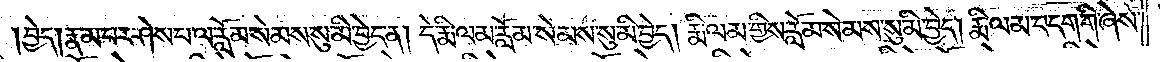བྱེད། རྣམ་པར་ཤེས་པ་ལ་རློམ་སེམས་སུ་མི་བྱེད་ན། དེ་རྨི་ལམ་རློམ་སེམས་སུ་མི་བྱེད། རྨི་ལམ་གྱིས་རློམ་སེམས་སུ་མི་བྱེད། རྨི་ལམ་བདག་གི་ཞེས་
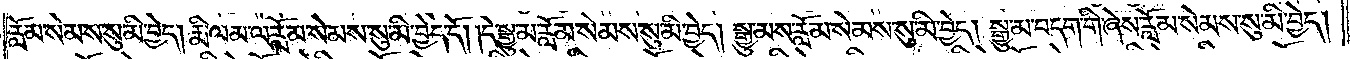རློམ་སེམས་སུ་མི་བྱེད། རྨི་ལམ་ལ་རློམ་སེམས་སུ་མི་བྱེད་དོ། །དེ་སྒྱུ་མ་རློམ་སེམས་སུ་མི་བྱེད། སྒྱུ་མས་རློམ་སེམས་སུ་མི་བྱེད། སྒྱུ་མ་བདག་གི་ཞེས་རློམ་སེམས་སུ་མི་བྱེད།
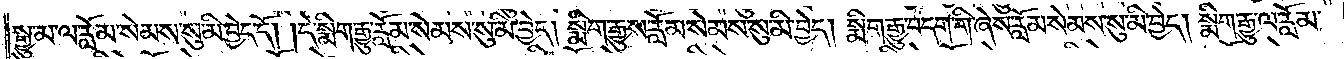སྒྱུ་མ་ལ་རློམ་སེམས་སུ་མི་བྱེད་དོ། །དེ་སྨིག་རྒྱུ་རློམ་སེམས་སུ་མི་བྱེད། སྨིག་རྒྱུས་རློམ་སེམས་སུ་མི་བྱེད། སྨིག་རྒྱུ་བདག་གི་ཞེས་རློམ་སེམས་སུ་མི་བྱེད། སྨིག་རྒྱུ་ལ་རློམ་
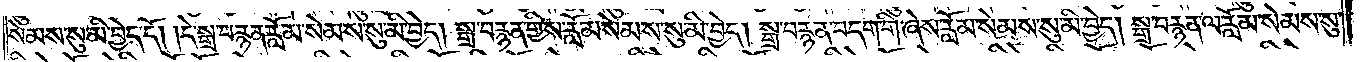སེམས་སུ་མི་བྱེད་དོ། །དེ་སྒྲ་བརྙན་རློམ་སེམས་སུ་མི་བྱེད། སྒྲ་བརྙན་གྱིས་རློམ་སེམས་སུ་མི་བྱེད། སྒྲ་བརྙན་བདག་གི་ཞེས་རློམ་སེམས་སུ་མི་བྱེད། སྒྲ་བརྙན་ལ་རློམ་སེམས་སུ་
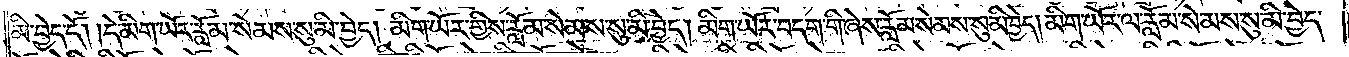མི་བྱེད་དོ། །དེ་མིག་ཡོར་རློམ་སེམས་སུ་མི་བྱེད། མིག་ཡོར་གྱིས་རློམ་སེམས་སུ་མི་བྱེད། མིག་ཡོར་བདག་གི་ཞེས་རློམ་སེམས་སུ་མི་བྱེད། མིག་ཡོར་ལ་རློམ་སེམས་སུ་མི་བྱེད་
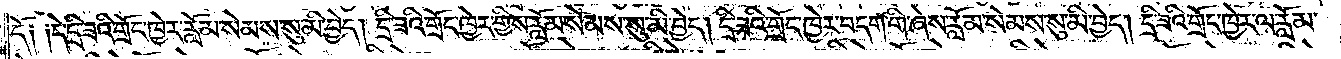དོ༑ ༑དེ་དྲི་ཟའི་གྲོང་ཁྱེར་རློམ་སེམས་སུ་མི་བྱེད། དྲི་ཟའི་གྲོང་ཁྱེར་གྱིས་རློམ་སེམས་སུ་མི་བྱེད། དྲི་ཟའི་གྲོང་ཁྱེར་བདག་གི་ཞེས་རློམ་སེམས་སུ་མི་བྱེད། དྲི་ཟའི་གྲོང་ཁྱེར་ལ་རློམ་
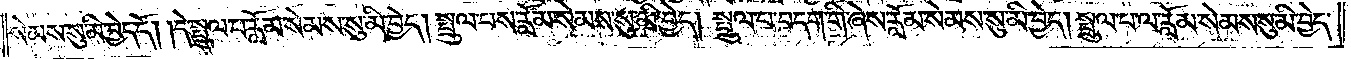སེམས་སུ་མི་བྱེད་དོ། །དེ་སྤྲུལ་པ་རློམ་སེམས་སུ་མི་བྱེད། སྤྲུལ་པས་རློམ་སེམས་སུ་མི་བྱེད། སྤྲུལ་པ་བདག་གི་ཞེས་རློམ་སེམས་སུ་མི་བྱེད། སྤྲུལ་པ་ལ་རློམ་སེམས་སུ་མི་བྱེད་
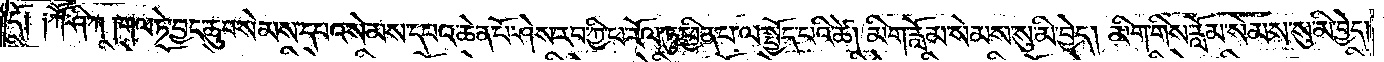དོ༑ ༑ཀཽ་ཤི་ཀ། གལ་ཏེ་བྱང་ཆུབ་སེམས་དཔའ་སེམས་དཔའ་ཆེན་པོ་ཤེས་རབ་ཀྱི་ཕ་རོལ་ཏུ་ཕྱིན་པ་ལ་སྤྱོད་པའི་ཚེ། མིག་རློམ་སེམས་སུ་མི་བྱེད། མིག་གིས་རློམ་སེམས་སུ་མི་བྱེད།
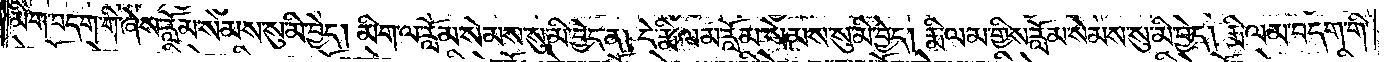མིག་བདག་གི་ཞེས་རློམ་སེམས་སུ་མི་བྱེད། མིག་ལ་རློམ་སེམས་སུ་མི་བྱེད་ན། དེ་རྨི་ལམ་རློམ་སེམས་སུ་མི་བྱེད། རྨི་ལམ་གྱིས་རློམ་སེམས་སུ་མི་བྱེད། རྨི་ལམ་བདག་གི་
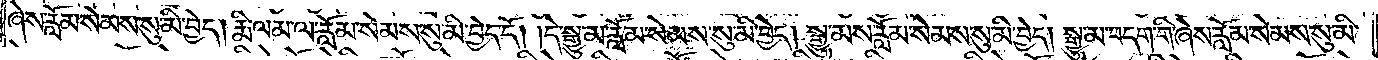ཞེས་རློམ་སེམས་སུ་མི་བྱེད། རྨི་ལམ་ལ་རློམ་སེམས་སུ་མི་བྱེད་དོ། །དེ་སྒྱུ་མ་རློམ་སེམས་སུ་མི་བྱེད། སྒྱུ་མས་རློམ་སེམས་སུ་མི་བྱེད། སྒྱུ་མ་བདག་གི་ཞེས་རློམ་སེམས་སུ་མི་
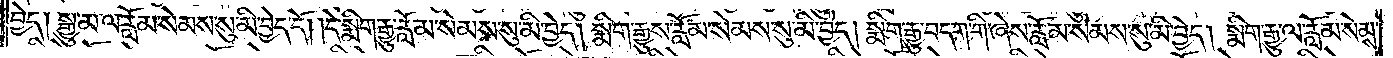བྱེད། སྒྱུ་མ་ལ་རློམ་སེམས་སུ་མི་བྱེད་དོ། །དེ་སྨིག་རྒྱུ་རློམ་སེམས་སུ་མི་བྱེད། སྨིག་རྒྱུས་རློམ་སེམས་སུ་མི་བྱེད། སྨིག་རྒྱུ་བདག་གི་ཞེས་རློམ་སེམས་སུ་མི་བྱེད། སྨིག་རྒྱུ་ལ་རློམ་སེམས་
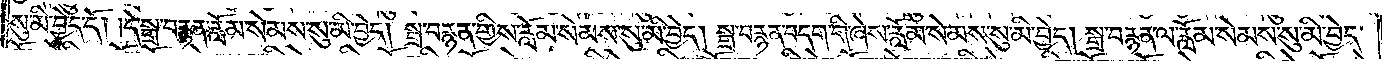སུ་མི་བྱེད་དོ། །དེ་སྒྲ་བརྙན་རློམ་སེམས་སུ་མི་བྱེད། སྒྲ་བརྙན་གྱིས་རློམ་སེམས་སུ་མི་བྱེད། སྒྲ་བརྙན་བདག་གི་ཞེས་རློམ་སེམས་སུ་མི་བྱེད། སྒྲ་བརྙན་ལ་རློམ་སེམས་སུ་མི་བྱེད་
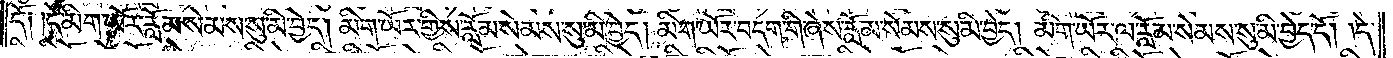དོ༑ ༑དེ་མིག་ཡོར་རློམ་སེམས་སུ་མི་བྱེད། མིག་ཡོར་གྱིས་རློམ་སེམས་སུ་མི་བྱེད། མིག་ཡོར་བདག་གི་ཞེས་རློམ་སེམས་སུ་མི་བྱེད། མིག་ཡོར་ལ་རློམ་སེམས་སུ་མི་བྱེད་དོ། །དེ་
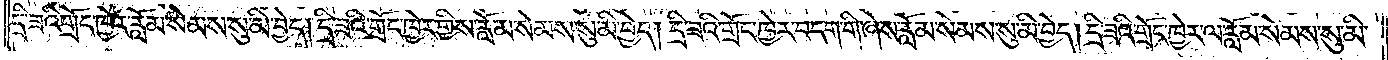དེ་དྲི་ཟའི་གྲོང་ཁྱེར་རློམ་སེམས་སུ་མི་བྱེད། དྲི་ཟའི་གྲོང་ཁྱེར་གྱིས་རློམ་སེམས་སུ་མི་བྱེད། དྲི་ཟའི་གྲོང་ཁྱེར་བདག་གི་ཞེས་རློམ་སེམས་སུ་མི་བྱེད། དྲི་ཟའི་གྲོང་ཁྱེར་ལ་རློམ་སེམས་སུ་མི་
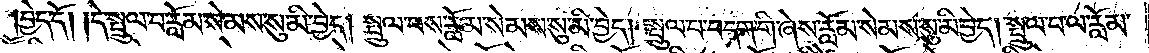བྱེད་དོ། །དེ་སྤྲུལ་པ་རློམ་སེམས་སུ་མི་བྱེད། སྤྲུལ་པས་རློམ་སེམས་སུ་མི་བྱེད། སྤྲུལ་པ་བདག་གི་ཞེས་རློམ་སེམས་སུ་མི་བྱེད། སྤྲུལ་པ་ལ་རློམ་
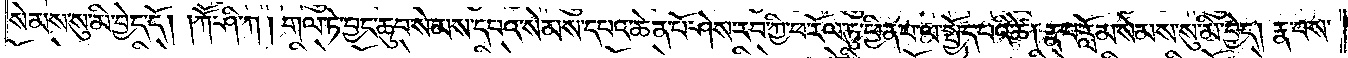སེམས་སུ་མི་བྱེད་དོ། །ཀཽ་ཤི་ཀ། གལ་ཏེ་བྱང་ཆུབ་སེམས་དཔའ་སེམས་དཔའ་ཆེན་པོ་ཤེས་རབ་ཀྱི་ཕ་རོལ་ཏུ་ཕྱིན་པ་ལ་སྤྱོད་པའི་ཚེ། རྣ་བ་རློམ་སེམས་སུ་མི་བྱེད། རྣ་བས་
